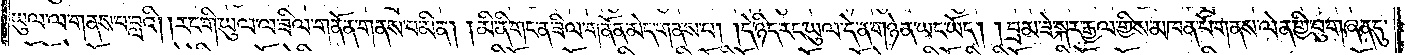ཡུལ་ལ་གནས་པ་བླའི། །རང་གི་ཡུལ་ལ་ཟིལ་གནོན་གནས་པ་མིན། །མི་ནི་གང་ན་ཟིལ་གནོན་མེད་གནས་པ། །དེ་ཉིད་རང་ཡུལ་དེ་ན་གཉེན་ཡང་ཡོད། །བྲམ་ཟེ་སྐར་རྒྱལ་གྱིས་མཁན་པོ་གནས་ལེན་གྱི་བུ་གཞན་དུ་
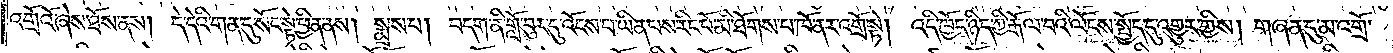འགྲོའོ་ཞེས་ཐོས་ནས། དེ་དེའི་གན་དུ་སོང་སྟེ་ཕྱིན་ནས། སྨྲས་པ། བདག་ནི་གློ་བུར་དུ་འོངས་པ་ཡིན་པས་རིང་པོ་མི་ཐོགས་པ་ཁོ་ནར་འགྲོ་སྟེ། འདི་ཁྱོད་ཉིད་ཀྱི་རྒོལ་བའི་ལོངས་སྤྱོད་དུ་འགྱུར་གྱིས། གཞན་དུ་མ་འགྲོ་
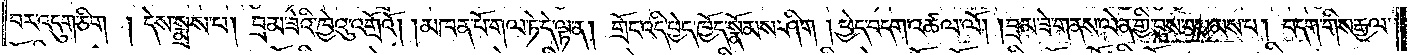བར་འདུག་ཅིག །དེས་སྨྲས་པ། བྲམ་ཟེའི་ཁྱེའུ་འགྲོའོ། །མཁན་པོ་གལ་ཏེ་དེ་ལྟ་ན། གྲོང་འདི་ཕྱེད་ཁྱོད་སྣོམས་ཤིག །ཕྱེད་བདག་འཚལ་ལོ། །བྲམ་ཟེ་གནས་ལེན་གྱི་བུས་བསམས་པ། བདག་གིས་རྒྱལ་
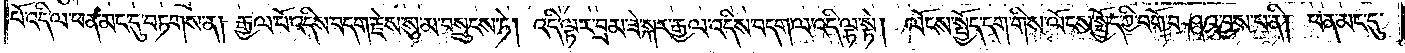པོ་འདི་ལ་ཕན་མང་དུ་བཏགས་ན། རྒྱལ་པོ་འདིས་བདག་རྗེས་སུ་མ་བསྲུངས་ཏེ། འདི་ལྟར་བྲམ་ཟེ་སྐར་རྒྱལ་འདིས་བདག་ལ་འདི་ལྟ་སྟེ། ལོངས་སྤྱོད་དག་གིས་ལོངས་སྤྱོད་ཀྱི་བགོ་བཤའ་བྱས་པ་ནི། ཕན་མང་དུ་
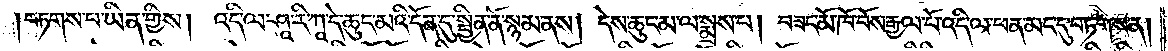།བཏགས་པ་ཡིན་གྱིས། འདི་ལ་ཤཱ་རི་ཀཱ་དེ་ཆུང་མའི་དོན་དུ་སྦྱིན་ནོ་སྙམ་ནས། དེས་ཆུང་མ་ལ་སྨྲས་པ། བཟང་མོ་ཁོ་བོས་རྒྱལ་པོ་འདི་ལ་ཕན་མང་དུ་བཏགས་ན།
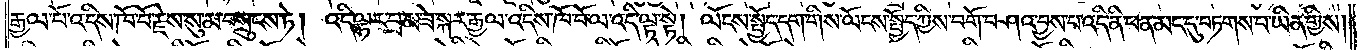རྒྱལ་པོ་འདིས་ཁོ་བོ་རྗེས་སུ་མ་བསྲུངས་ཏེ། འདི་ལྟར་བྲམ་ཟེ་སྐར་རྒྱལ་འདིས་ཁོ་བོ་ལ་འདི་ལྟ་སྟེ། ལོངས་སྤྱོད་དག་གིས་ལོངས་སྤྱོད་ཀྱིས་བགོ་བཤའ་བྱས་པ་འདི་ནི་ཕན་མང་དུ་བཏགས་པ་ཡིན་གྱིས།
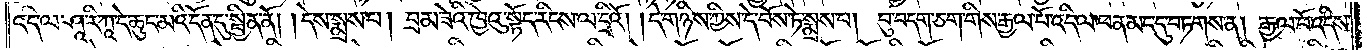འདི་ལ་ཤཱ་རི་ཀཱ་དེ་ཆུང་མའི་དོན་དུ་སྦྱིན་ནོ། །དེས་སྨྲས་པ། བྲམ་ཟེའི་ཁྱེའུ་སྟོད་རིངས་ལ་དྲིའོ། །དེ་གཉིས་ཀྱིས་དེ་བོས་ཏེ་སྨྲས་པ། བུ་བདག་ཅག་གིས་རྒྱལ་པོ་འདི་ལ་ཕན་མང་དུ་བཏགས་ན། རྒྱལ་པོ་འདིས་
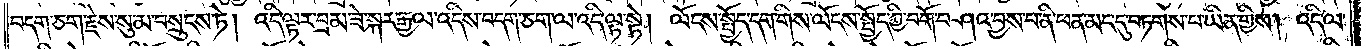བདག་ཅག་རྗེས་སུ་མ་བསྲུངས་ཏེ། འདི་ལྟར་བྲམ་ཟེ་སྐར་རྒྱལ་འདིས་བདག་ཅག་ལ་འདི་ལྟ་སྟེ། ལོངས་སྤྱོད་དག་གིས་ལོངས་སྤྱོད་ཀྱི་བགོ་བཤའ་བྱས་པ་ནི་ཕན་མང་དུ་བཏགས་པ་ཡིན་གྱིས། འདི་ལ་
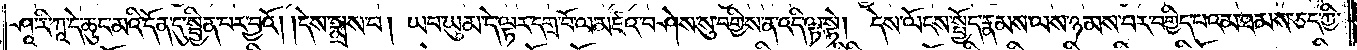ཤཱ་རི་ཀཱ་དེ་ཆུང་མའི་དོན་དུ་སྦྱིན་པར་བྱའོ། །དེས་སྨྲས་པ། ཡབ་ཡུམ་དེ་ལྟར་དགྲ་བོ་ལ་མཛའ་བཤེས་སུ་བགྱིས་ན་འདི་ལྟ་སྟེ། དེས་ལོངས་སྤྱོད་རྣམས་ལས་ཉམས་པར་བགྱིད་པའམ་ཐམས་ཅད་ཀྱི་
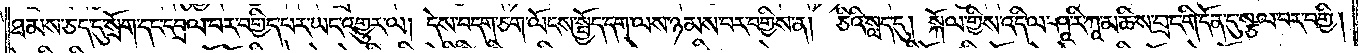ཐམས་ཅད་དུ་སྲོག་དང་དབྲལ་བར་བགྱིད་པར་ཡང་འགྱུར་ལ། དེས་བདག་ཅག་ལོངས་སྤྱོད་དག་ལས་ཉམས་པར་བགྱིས་ན། ཅིའི་སླད་དུ། སྐོལ་གྱིས་འདི་ལ་ཤཱ་རི་ཀཱ་མཆིས་བྲང་གི་དོན་དུ་སྩལ་བར་བགྱི།
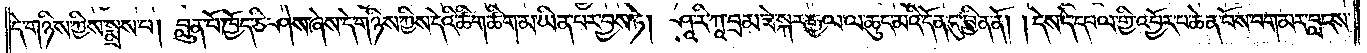དེ་གཉིས་ཀྱིས་སྨྲས་པ། བླུན་པོ་ཁྱོད་ཅི་ཤེས་ཞེས་དེ་གཉིས་ཀྱིས་དེའི་ཚིག་ཚིག་མ་ཡིན་པར་བྱས་ཏེ། ཤཱ་རི་ཀཱ་བྲམ་ཟེ་སྐར་རྒྱལ་ལ་ཆུང་མའི་དོན་དུ་བྱིན་ནོ། །དེས་དེ་དཔལ་གྱི་འབྱོར་བ་ཆེན་པོས་བག་མར་བླངས་
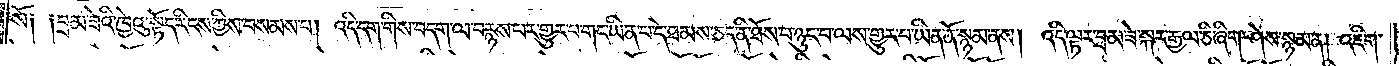སོ༑ ༑བྲམ་ཟེའི་ཁྱེའུ་སྟོད་རིངས་ཀྱིས་བསམས་པ། འདི་དག་གིས་བདག་ལ་བརྙས་པར་གྱུར་པ་གང་ཡིན་པ་དེ་ཐམས་ཅད་ནི་ཐོས་པ་ཉུང་བ་ལས་གྱུར་པ་ཡིན་ནོ་སྙམ་ནས། འདི་ལྟར་བྲམ་ཟེ་སྐར་རྒྱལ་ཅི་ཞིག་ཤེས་སྙམ་ན། འཇིག་
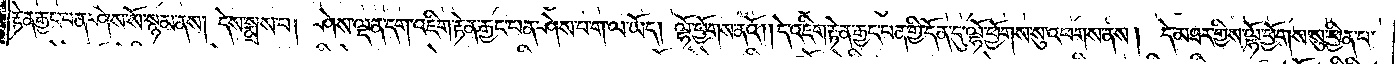རྟེན་རྒྱང་པན་ཤེས་སོ་སྙམ་ནས། དེས་སྨྲས་པ། ཤེས་ལྡན་དག་འཇིག་རྟེན་རྒྱང་པན་ཤེས་པ་ག་ལ་ཡོད། ལྷོ་ཕྱོགས་ནའོ། །དེ་འཇིག་རྟེན་རྒྱང་པན་གྱི་དོན་དུ་ལྷོ་ཕྱོགས་སུ་འཕགས་ནས། དེ་མཐར་གྱིས་ལྷོ་ཕྱོགས་སུ་ཕྱིན་པ་
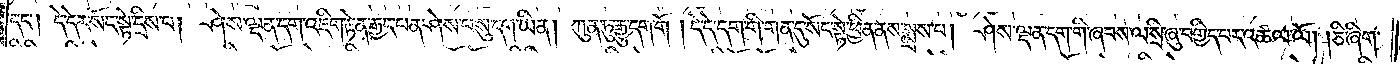དང༌། དེ་དེར་སོང་སྟེ་དྲིས་པ། ཤེས་ལྡན་དག་འཇིག་རྟེན་རྒྱང་པན་ཤེས་པ་སུ་དག་ཡིན། ཀུན་ཏུ་རྒྱུ་དག་གོ །དེ་དེ་དག་གི་གན་དུ་སོང་སྟེ་ཕྱིན་ནས་སྨྲས་པ། ཤེས་ལྡན་དག་གི་ཞབས་ལ་སྲི་ཞུ་བགྱིད་པར་འཚལ་ལོ། །ཅི་ཞིག་
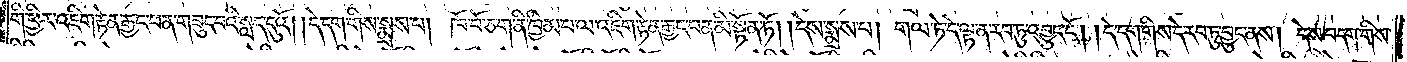གི་ཕྱིར་འཇིག་རྟེན་རྒྱང་ཕན་གཟུང་བའི་སླད་དུའོ། །དེ་དག་གིས་སྨྲས་པ། ཁོ་བོ་ཅག་ནི་ཁྱིམ་པ་ལ་འཇིག་རྟེན་རྒྱང་པན་མི་སྟོན་ཏོ། །དེས་སྨྲས་པ། གལ་ཏེ་དེ་ལྟ་ན་རབ་ཏུ་འབྱུང་ངོ༌། །དེ་དག་གིས་དེ་རབ་ཏུ་བྱུང་ནས། དེས་བདག་གིས་
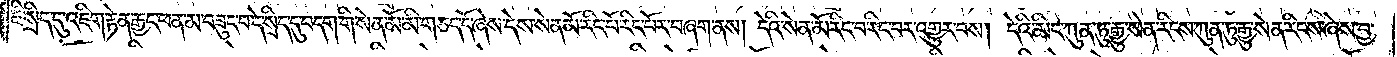ཇི་སྲིད་དུ་འཇིག་རྟེན་རྒྱང་ཕན་མ་བཟུང་བ་དེ་སྲིད་དུ་བདག་གི་སེན་མོ་མི་གཅད་དོ་ཞེས་དེས་སེན་མོ་རིང་པོ་རིང་པོར་བཞག་ནས། དེའི་སེན་མོ་རིང་བ་རིང་བར་འགྱུར་བས། དེའི་མིང་ཀུན་ཏུ་རྒྱུ་སེན་རིངས་ཀུན་ཏུ་རྒྱུ་སེན་རིངས་ཞེས་བྱ་
